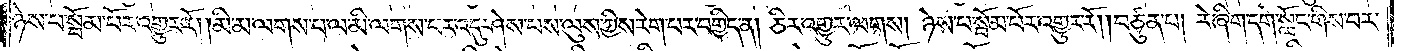ཉེས་པ་སྦོམ་པོར་འགྱུར་རོ། །མི་མ་ལགས་པ་ལ་མི་ལགས་པར་འདུ་ཤེས་པས་ལུས་ཀྱིས་རེག་པར་བགྱིད་ན། ཅིར་འགྱུར་ལགས། ཉེས་པ་སྦོམ་པོར་འགྱུར་རོ། །བཙུན་པ། རེ་ཞིག་དགེ་སློང་གིས་བར་
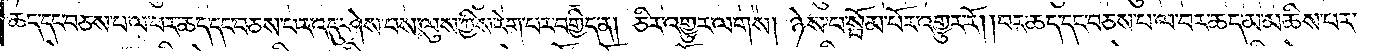ཆད་དང་བཅས་པ་ལ་བར་ཆད་དང་བཅས་པར་འདུ་ཤེས་པས་ལུས་ཀྱིས་རེག་པར་བགྱིད་ན། ཅིར་འགྱུར་ལགས། ཉེས་པ་སྦོམ་པོར་འགྱུར་རོ། །བར་ཆད་དང་བཅས་པ་ལ་བར་ཆད་མ་མཆིས་པར་
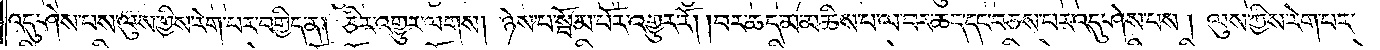འདུ་ཤེས་པས་ལུས་ཀྱིས་རེག་པར་བགྱིད་ན། ཅིར་འགྱུར་ལགས། ཉེས་པ་སྦོམ་པོར་འགྱུར་རོ། །བར་ཆད་མ་མཆིས་པ་ལ་བར་ཆད་དང་བཅས་པར་འདུ་ཤེས་པས། ལུས་ཀྱིས་རེག་པར་
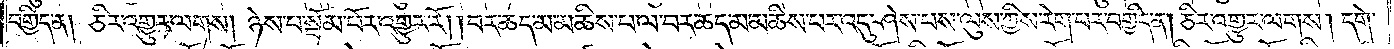བགྱིད་ན། ཅིར་འགྱུར་ལགས། ཉེས་པ་སྦོམ་པོར་འགྱུར་རོ། །བར་ཆད་མ་མཆིས་པ་ལ་བར་ཆད་མ་མཆིས་པར་འདུ་ཤེས་པས་ལུས་ཀྱིས་རེག་པར་བགྱིད་ན། ཅིར་འགྱུར་ལགས། དགེ་
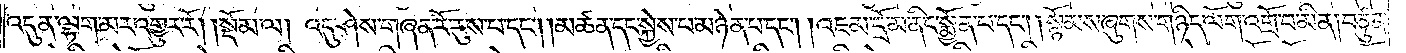འདུན་ལྷག་མར་འགྱུར་རོ། །སྡོམ་ལ། འདུ་ཤེས་གཞན་རོ་རུས་པ་དང༌། །མཚན་དང་སྐྱེས་པ་མཉེན་པ་དང༌། །འཇམ་དྲོ་མ་ནིང་སྨྱོན་པ་དང༌། །སྙོམས་ཞུགས་གཉིད་ལོག་འགྲོ་བ་མིན། བཙུན་
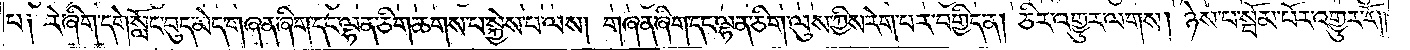པ༑ རེ་ཞིག་དགེ་སློང་བུད་མེད་གཞན་ཞིག་དང་ལྷན་ཅིག་ཆགས་པ་སྐྱེས་པ་ལས། གཞན་ཞིག་དང་ལྷན་ཅིག་ལུས་ཀྱིས་རེག་པར་བགྱིད་ན། ཅིར་འགྱུར་ལགས། ཉེས་པ་སྦོམ་པོར་འགྱུར་རོ༎
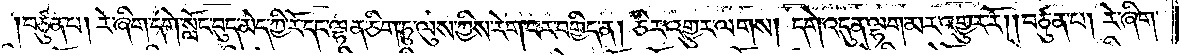།བཙུན་པ། རེ་ཞིག་དགེ་སློང་བུད་མེད་ཀྱི་རོ་དང་ལྷན་ཅིག་ཏུ་ལུས་ཀྱིས་རེག་པར་བགྱིད་ན། ཅིར་འགྱུར་ལགས། དགེ་འདུན་ལྷག་མར་འགྱུར་རོ། །བཙུན་པ། རེ་ཞིག་
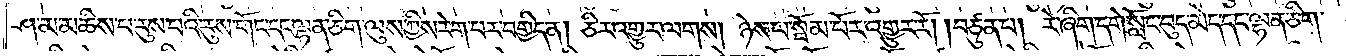ཤ་མ་མཆིས་པ་རུས་པའི་རུས་གོང་དང་ལྷན་ཅིག་ལུས་ཀྱིས་རེག་པར་བགྱིད་ན། ཅིར་འགྱུར་ལགས། ཉེས་པ་སྤོམ་པོར་འགྱུར་རོ། །བཙུན་པ། རེ་ཞིག་དགེ་སློང་བུད་མེད་དང་ལྷན་ཅིག་
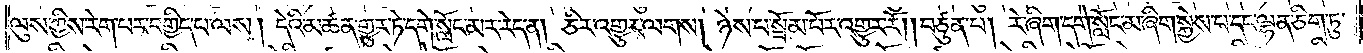ལུས་ཀྱིས་རེག་པར་བགྱིད་པ་ལས། དེའི་མཚན་གྱུར་ཏེ་དགེ་སློང་མར་རེད་ན། ཅིར་འགྱུར་ལགས། ཉེས་པ་སྦོམ་པོར་འགྱུར་རོ། །བཙུན་པ། རེ་ཞིག་དགེ་སློང་མ་ཞིག་སྐྱེས་པ་དང་ལྷན་ཅིག་ཏུ་
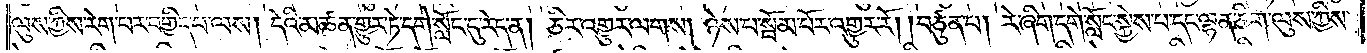ལུས་ཀྱིས་རེག་པར་བགྱིད་པ་ལས། དེའི་མཚན་གྱུར་ཏེ་དགེ་སློང་དུ་རེད་ན། ཅིར་འགྱུར་ལགས། ཉེས་པ་སྦོམ་པོར་འགྱུར་རོ། །བཙུན་པ། རེ་ཞིག་དགེ་སློང་སྐྱེས་པ་དང་ལྷན་ཅིག་ལུས་ཀྱིས་
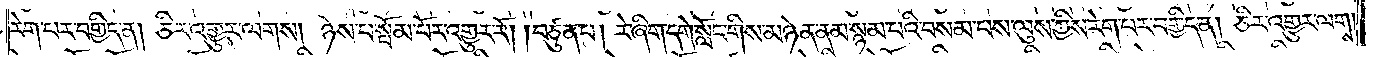རེག་པར་བགྱིད་ན། ཅིར་འགྱུར་ལགས། ཉེས་པ་སྦོམ་པོར་འགྱུར་རོ། །བཙུན་པ། རེ་ཞིག་དགེ་སློང་གིས་མཉེན་ནམ་སྙམ་པའི་བསམ་པས་ལུས་ཀྱིས་རེག་པར་བགྱིད་ན། ཅིར་འགྱུར་ལགས་
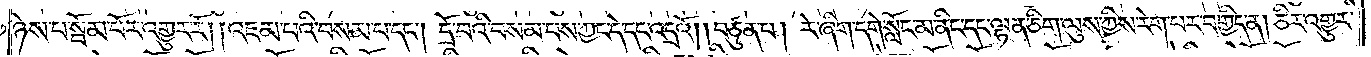ཉེས་པ་སྦོམ་པོར་འགྱུར་རོ། །འཇམ་པའི་བསམ་པ་དང༌། དྲོ་བའི་བསམ་པས་ཀྱང་དེ་དང་འདྲའོ། །བཙུན་པ། རེ་ཞིག་དགེ་སློང་མ་ནིང་དང་ལྷན་ཅིག་ལུས་ཀྱིས་རེག་པར་བགྱིད་ན། ཅིར་འགྱུར་
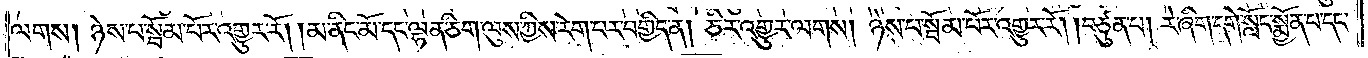ལགས། ཉེས་པ་སྦོམ་པོར་འགྱུར་རོ། །མ་ནིང་མོ་དང་ལྷན་ཅིག་ལུས་ཀྱིས་རེག་པར་བགྱིད་ན། ཅིར་འགྱུར་ལགས། ཉེས་པ་སྦོམ་པོར་འགྱུར་རོ། །བཙུན་པ། རེ་ཞིག་དགེ་སློང་སྨྱོན་པ་དང་
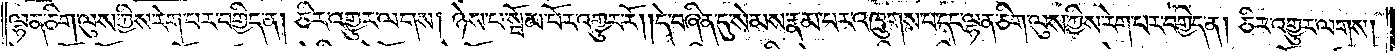ལྷན་ཅིག་ལུས་ཀྱིས་རེག་པར་བགྱིད་ན། ཅིར་འགྱུར་ལགས། ཉེས་པ་སྦོམ་པོར་འགྱུར་རོ། །དེ་བཞིན་དུ་སེམས་རྣམ་པར་འཁྲུགས་པ་དང་ལྷན་ཅིག་ལུས་ཀྱིས་རེག་པར་བགྱིད་ན། ཅིར་འགྱུར་ལགས་
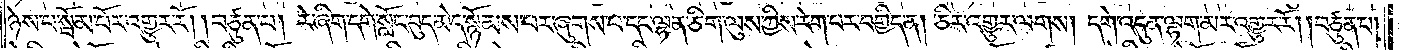ཉེས་པ་སྦོམ་པོར་འགྱུར་རོ། །བཙུན་པ། རེ་ཞིག་དགེ་སློང་བུད་མེད་སྙོམས་པར་ཞུགས་པ་དང་ལྷན་ཅིག་ལུས་ཀྱིས་རེག་པར་བགྱིད་ན། ཅིར་འགྱུར་ལགས། དགེ་འདུན་ལྷག་མར་འགྱུར་རོ། །བཙུན་པ་
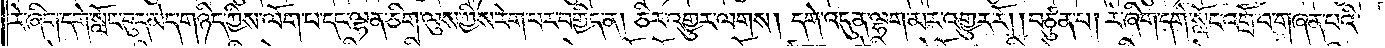རེ་ཞིག་དགེ་སློང་བུད་མེད་གཉིས་ཀྱིས་ལོག་པ་དང་ལྷན་ཅིག་ལུས་ཀྱིས་རེག་པར་བགྱིད་ན། ཅིར་འགྱུར་ལགས། དགེ་འདུན་ལྷག་མར་འགྱུར་རོ། །བཙུན་པ། རེ་ཞིག་དགེ་སློང་འགྲོ་བ་གཞན་པའི་
